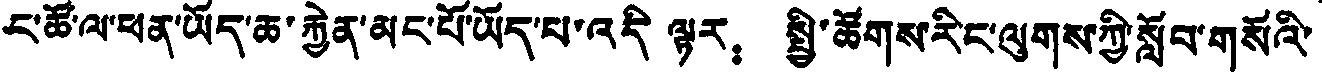ང་ཚོ་ལ་ཕན་ཡོད་ཆ་རྐྱེན་མང་པོ་ཡོད་པ་འདི ལྟར： སྤྱི་ཚོགས་རིང་ལུགས་ཀྱི་སློབ་གསོའི་
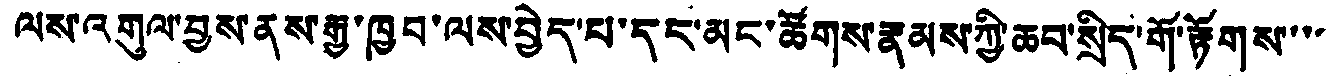ལས་འགུལ་བྱས་ནས་རྒྱ་ཁྱབ་ལས་བྱེད་པ་དང་མང་ཚོགས་རྣམས་ཀྱི་ཆབ་སྲིད་གོ་རྟོགས་་་་
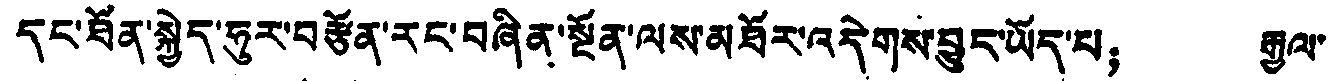དང་ཐོན་སྐྱེད་ཧུར་བརྩོན་རང་བཞིན་སྔོན་ལས་མཐོར་འདེགས་བྱུང་ཡོད་པ； རྒྱལ་
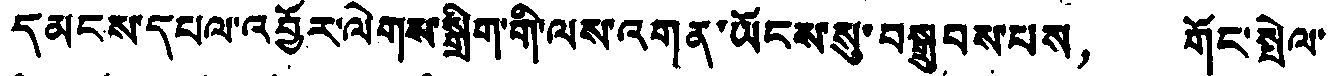དམངས་དཔལ་འབྱོར་ལེགས་སྒྲིག་གི་ལས་འགན་ཡོངས་སུ་བསྒྲུབས་པས， གོང་སྤེལ་
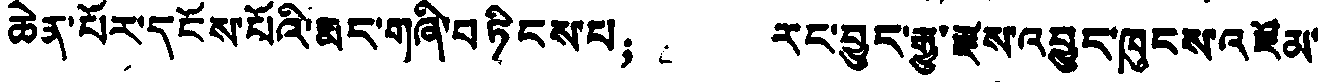ཆེན་པོར་དངོས་པོའི་རྨང་གཞི་བཏིངས་པ； རང་བྱུང་རྒྱུ་རྫས་འབྱུང་ཁུངས་འཛོམ་
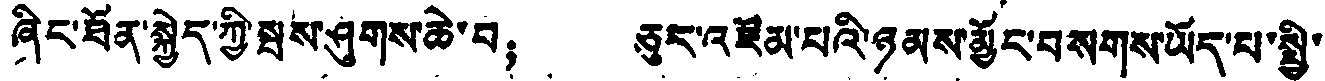ཞིང་ཐོན་སྐྱེད་ཀྱི་སྦས་ཤུགས་ཆེ་བ； ཅུར་འཛོམ་པའི་ཉམས་མྱོང་བསགས་ཡོད་པ་སྤྱི་
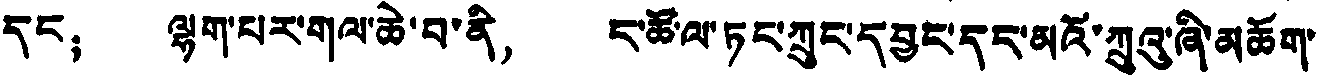དང； ལྷག་པར་གལ་ཆེ་བ་ནི， ང་ཚོ་ལ་ཏང་ཀྲུང་དབྱང་དང་མའོ་ཀྲུའུ་ཞི་མཆོག་
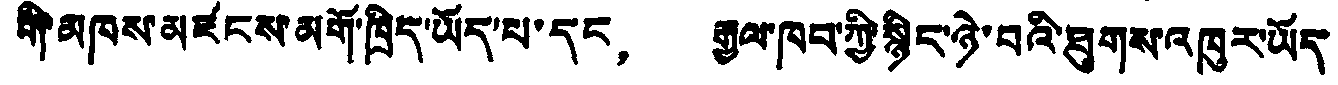གི་མཁས་མཛངས་མགོ་ཁྲིད་ཡོད་པ་དང， རྒྱལ་ཁབ་ཀྱི་སྙིང་ཉེ་བའི་ཐུགས་འཁུར་ཡོད་
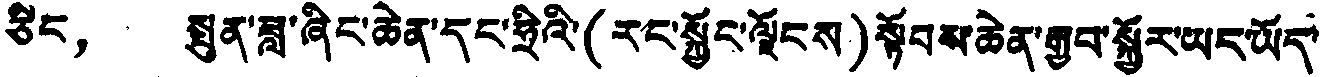ཅིང， སྤུན་ཟླ་ཞིང་ཆེན་དང་ཧྲིའི་(རང་སྐྱོང་ལྗོངས)སྟོབས་ཆེན་རྒྱབ་སྐྱོར་ཡང་ཡོད་
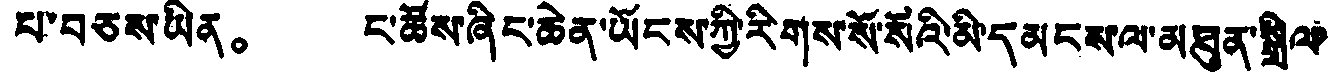པ་བཅས་ཡིན。 ང་ཚོས་ཞིང་ཆེན་ཡོངས་ཀྱི་རིགས་སོ་སོའི་མི་དམངས་ལ་མཐུན་སྒྲིལ་
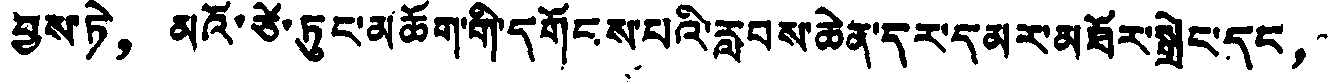བྱས་ཏེ， མའོ་ཙེ་ཏུང་མཆོག་གི་དགོངས་པའི་རླབས་ཆེན་དར་དམར་མཐོར་སྒྲེང་དང་
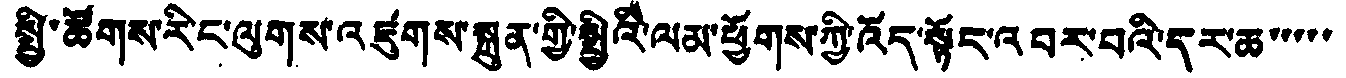སྤྱི་ཚོགས་རིང་ལུགས་འཛུགས་སྐྲུན་གྱི་སྤྱིའི་ལམ་ཕྱོགས་ཀྱི་འོད་སྟོང་འབར་བའི་དར་ཆ་་་་་་
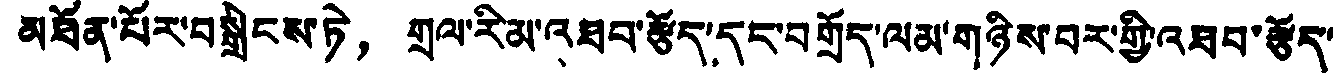མཐོན་པོར་བསྒྲིངས་ཏེ， གྲལ་རིམ་འཐབ་རྩོད་དང་བགྲོད་ལམ་གཉིས་བར་གྱི་འཐབ་རྩོད་
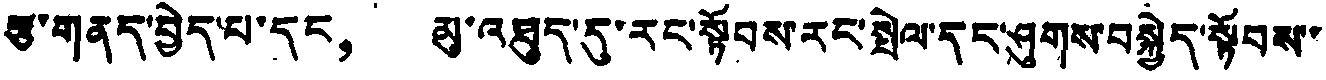རྩ་གནད་བྱེད་པ་དང， མུ་འཐུད་དུ་རང་སྟོབས་རང་སྤེལ་དང་ཤུགས་བསྐྱེད་སྟོབས་
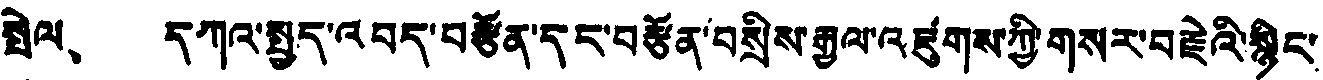སྤེལ、 དཀའ་སྤྱད་འབད་བརྩོན་དང་བརྩོན་བསྲིས་རྒྱལ་འཛུགས་ཀྱི་གསར་བརྗེའི་སྙིང་
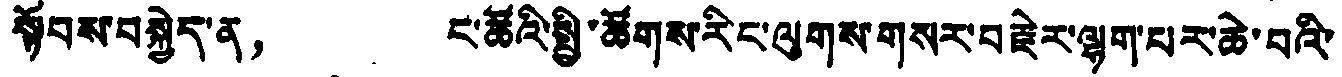སྟོབས་བསྐྱེད་ན， ང་ཚོའི་སྤྱི་ཚོགས་རིང་ལུགས་གསར་བརྗེར་ལྷག་པར་ཆེ་བའི་
